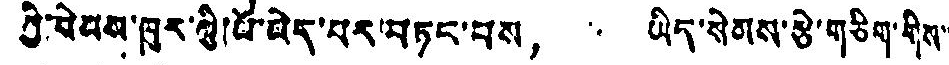ཀྱི་སེམས་ཁུར་གྱི་པོ་མེད་པར་བཏང་བས， ཡིད་སེམས་རྩེ་གཅིག་གིས་་
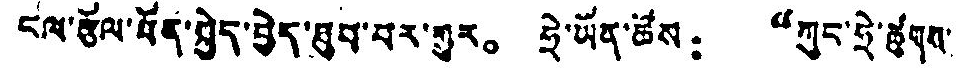ངལ་རྩོལ་ཐོན་སྐྱེད་བྱེད་ཐུབ་པར་གྱུར。 ཧྲེ་ཡོན་ཚོས： “ཀུང་ཧྲེ་ཚུགས་
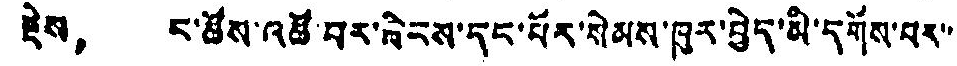རྗེས， ང་ཚོས་འཚོ་བར་ཞིངས་དང་པོར་སེམས་ཁུར་བྱེད་མི་དགོས་པར་་
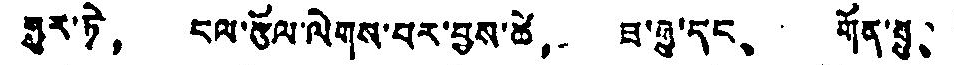སུར་ཏེ， ངལ་རྩོལ་ལེགས་པར་བྱས་ཚེ， ཟ་རྒྱུ་དང、 གོན་རྒྱུ、
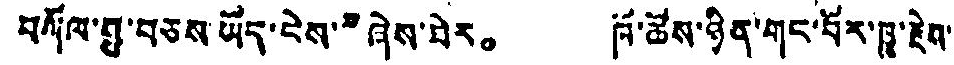བཀོལ་རྒྱུ་བཅས་ཡོད་ངེས་”ཞེས་པེར。 ཁོ་ཚོས་ཉིན་གང་བོར་ཁྱུ་རྗེས་
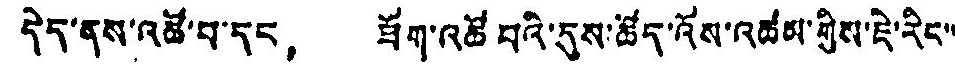དེད་ནས་འཚོ་བ་དང， ཟོག་འཚོ བའི་དུས་ཚོད་འོས་འཚམ་གྱིས་ཇེ་རིང་་
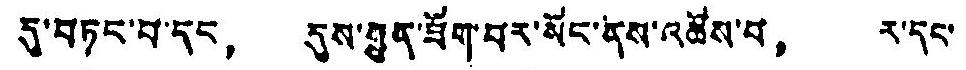དུ་བཏང་བ་དང， དུས་ཧྱུན་ཟོག་བར་སོང་ནས་འཚོས་པ， ར་དང་
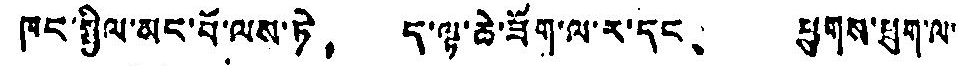ཁང་སྤྱིལ་མང་པོ་ལས་ཏེ， ད་ལྟ་ཆེ་ཟོག་ལ་ར་དང、 ཕྱུགས་ཐུག་ལ་
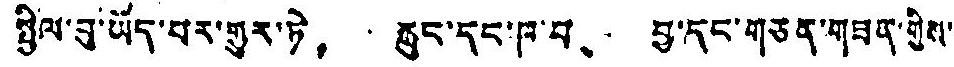སྤྱིལ་བུ་ཡོད་པར་གྱུར་ཏེ， ཆུང་དང་ཁ་བ、 བྱ་དང་གཅན་གཟན་གྱིས་
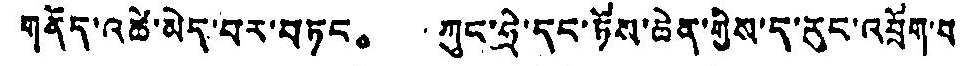གནོད་འཚེ་མེད་པར་བཏང。 ཀུང་ཧྲེ་དང་ཧོས་ཆེན་གྱིས་ད་རུང་འབྲོག་པ
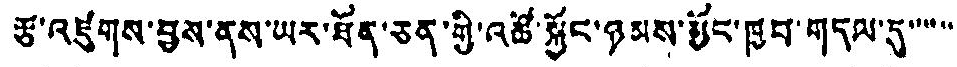རྩ་འཛུགས་བྱས་ནས་ཡར་ཐོན་ཅན་གྱི་འཚོ་སྐྱོང་ཉམས་མྱོང་ཁྱབ་གདལ་དུ་་་་་་་
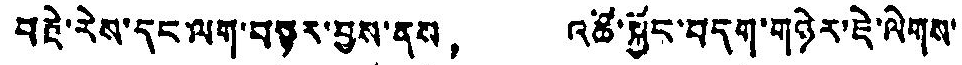བརྗེ་རེས་དང་ལག་བཉར་བྱས་ནས， འཚོ་སྐྱོང་བདག་གཉེར་ཇེ་ལེགས་
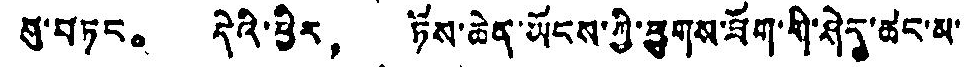སུ་བཏང。 དེའི་ཕྱིར， ཏོས་ཆེན་ཡོངས་ཀྱི་ཕྱུགས་ཟོག་གི་ཤེད་ཚང་མ་
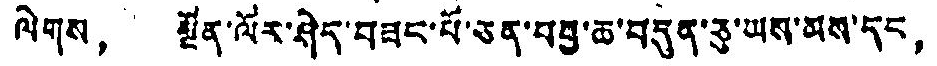ལེགས， སྔོན་ལོར་ཤེད་བཟང་པོ་ཅན་བརྒྱ་ཆ་བདུན་ཅུ་ཡས་མས་དང，
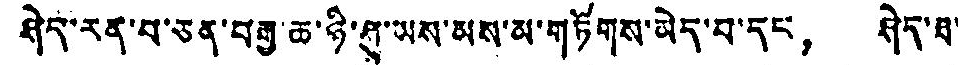ཤེད་རན་པ་ཅན་བརྒྱ་ཆ་ཉི་ཤུ་ཡས་མས་མ་གཏོགས་མེད་པ་དང， ཤེད་ཐ་
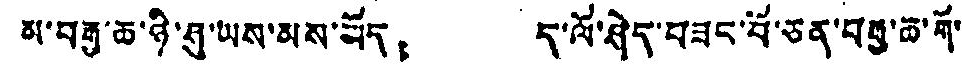མ་བརྒྱ་ཆ་ཉི་ཤུ་ཡས་མས་ཡོད， ད་ལོ་ཤེད་བཟང་པོ་ཅན་བརྒྱ་ཆ་གོ་
